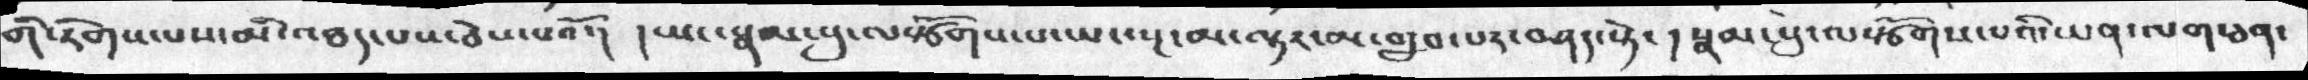གི་རིགས་པས་མི་འཐད་པས་ཅེས་པའོ་།  །ཡང་སྣམ་བུ་ལསྩོགས་པ་ཡང་སྔ་མ་ལྟར་མ་གྲུབ་པར་བཤད་སྟེ་། སྣམ་བུ་ལསྩོགས་པའི་ཡན་ལག་ཅན་
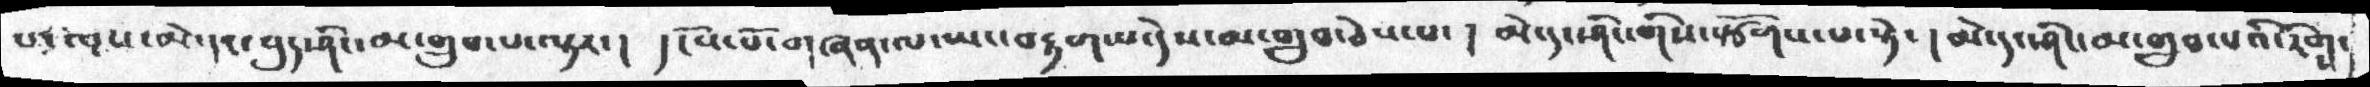པ་ལས་མེ་དང་བུད་ཤིང་མ་གྲུབ་པ་ལྟར་།  དངོས་པོ་གཞན་ལ་ཡང་བརྟག་པ་དེས་མ་གྲུབ་ཅེས་པ་།  མེ་དང་ཤིང་གིས་སྩོགས་པ་སྟེ་།  མེ་དང་ཤིང་མ་གྲུབ་པའི་རིགས་
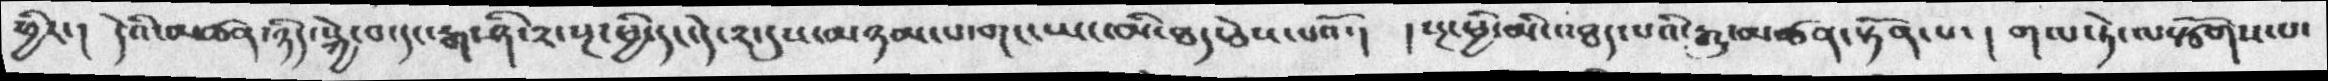ཕྱིར་།  དེའི་མཚན་ཉིད་སྐྱེ་བ་རྒ་ཤི་༢་སྔ་ཕྱི་དང་དེ་༢་དུས་མཉམ་པ་གང་ཡང་མི་ཐད་ཅེས་པའོ་།  །སྔ་ཕྱི་མི་འཐད་པའི་རྒྱུ་མཚན་སྟོན་པ་།  གལ་ཏེ་ལསྩོགས་པ་
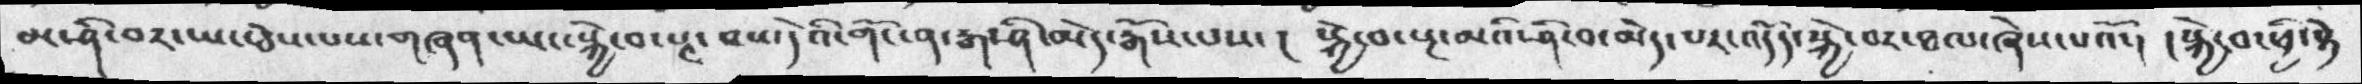མ་ཤི་བར་ཡང་ཅེས་པས་གཞན་ཡང་སྐྱེ་བ་སྔ་བས་དེའི་གོང་ན་རྒ་ཤི་མོད་རྒོས་པས་།   སྐྱེ་བ་སྔ་མའི་ཤི་བ་མེད་པར་འདོད་སྐྱེ་བར་ཐལ་ཞེས་པའོ་།   ། སྐྱེ་བ་ཕྱི་སྟེ་
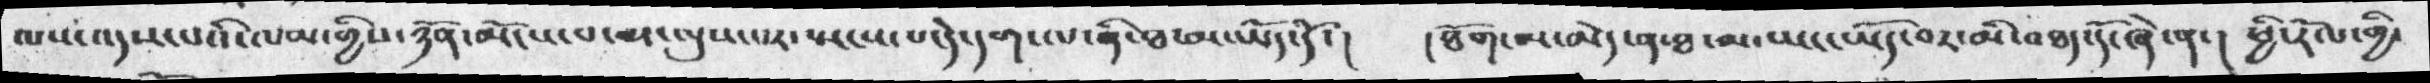ལས་འདས་པའི་ལམ་གྱིས་ཉོན་མོངས་པ་མ་ལུས་པར་སྤངས་པ་དེ་དག་ལ་ནི་ཐ་མ་ཡོད་དོ་།  །ཐོག་མ་མེད་ན་ཐ་མ་ཡང་ཡོད་བར་མི་འཐད་དོ་ཞེ་ན་།  ཕྱི་རོལ་གྱི་
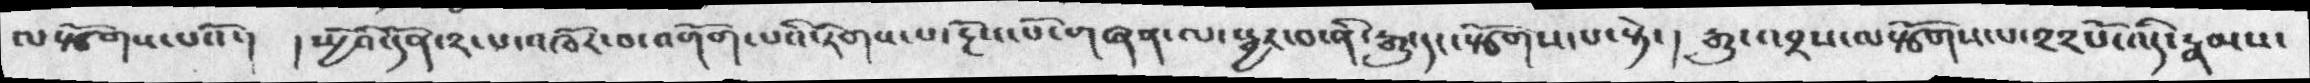ལསྩོགས་པའོ་།  །སྤྱིའིདོན་༢་པ་འཁོར་བ་འགོག་པའི་རིགས་པ་རྔོས་པོ་གཞན་ལ་སྦྱར་བ་ནི་རྒྱུ་དང་སྩོགས་པ་སྟེ་།  རྒྱུ་འབྲས་ལསྩོགས་པ་༢༢པོ་འདི་རྣམས་
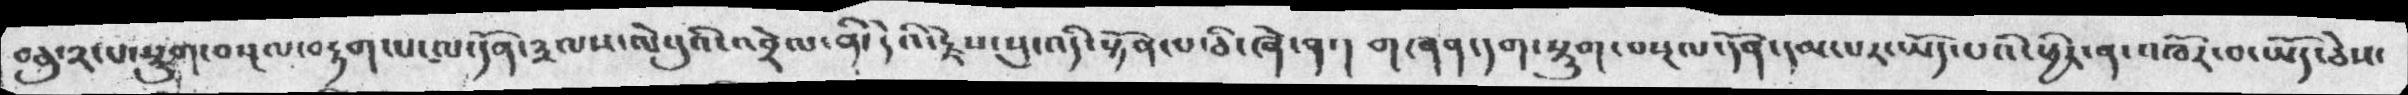བཅུ་༢་པ་སྡུག་བསྔལ་བརྟག་པ་ལ་དོན་༣ལས་ལེའུའི་འབྲེལ་བ་ནི་དེའི་རྗེས་སུ་འདི་སྟོན་པ་ཅི་ཞེ་ན་། གཞན་དག་སྡུག་བསྔལ་དོན་དམ་པར་ཡོད་པའི་ཕྱིར་ན་འཁོར་བ་ཡོད་ཅེས་
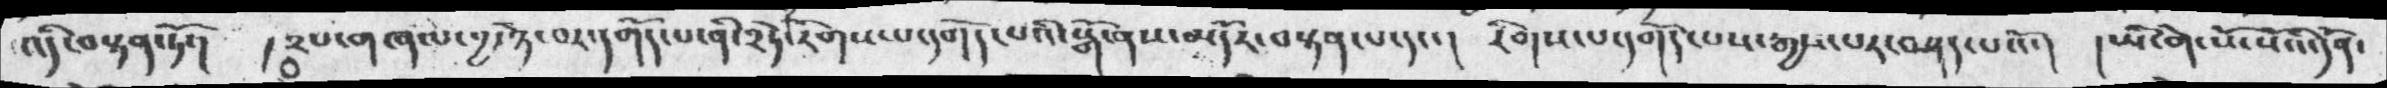འདི་བསྟན་ཏོ་   ། ༢པ་གཞལ་བྱ་ཉེ་བར་དགོད་པ་ནི་༢ཏེ་རིགས་པ་དགོད་པའི་སྒོ་ནས་མདོར་བསྟན་པ་དང་།  རིགས་པ་དགོད་པས་རྒྱས་པར་བཤད་པའོ་།   ། ཡི་གེ་སོ་སོའི་དོན་
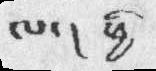ལ་།  ཕྱི
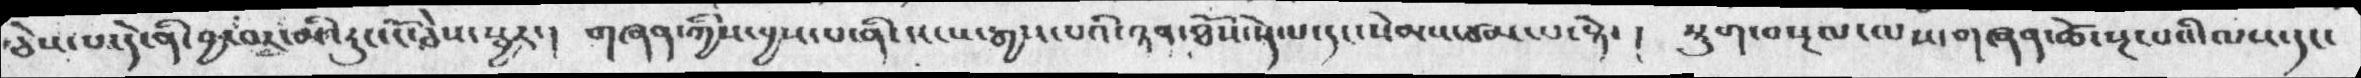ཅེས་པ་དེ་ནི་བྱ་བར་མི་རུང་ངོ་ཅེས་སྦྱར་།  གཞཉ་ཀྱིས་བྱས་པ་ནི་སངས་རྒྱས་པའི་ཉན་ཐོས་སྡེ་པ་དང་སེམས་ཙམ་པ་སྟེ་། སྡུག་བསྔལ་ལས་གཞན་ཚེ་སྔ་པའི་ལས་དང་
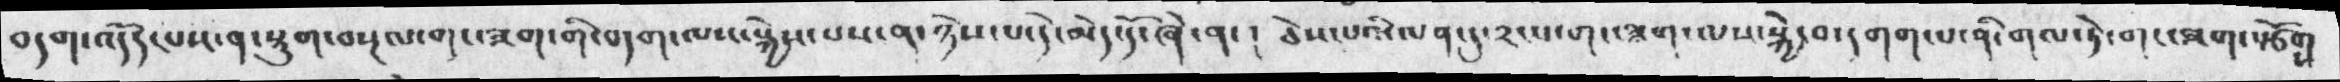བདག་འདོད་པས་ན་སྡུག་བསྔལ་གང་ཟག་གི་བདག་ལས་སྐྱེས་པས་ན་ཉེས་པ་དེ་མེད་དོ་ཞེ་ན་།  ཅེས་པའི་ལན་དུ་༢་པ་གང་ཟག་ལས་སྐྱེ་བ་དགག་པ་ནི་གལ་ཏེ་གང་ཟག་སྩོགས་
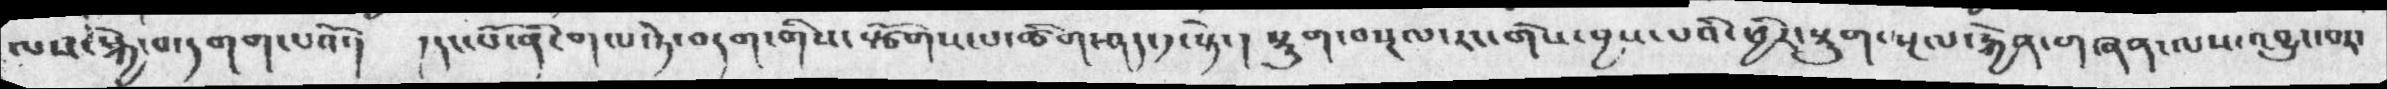ལས་སྐྱེ་བ་དགག་པའོ་།  །དང་པོ་ནི་གལ་ཏེ་བདག་གིས་སྩོགས་པ་ཚིག་ཤད་༡་སྟེ་། སྡུག་བསྔལ་རང་གིས་བྱས་པའི་ཕྱིར་སྡུག་སྔལ་རྐྱེན་གཞན་ལས་འབྱུང་བར་
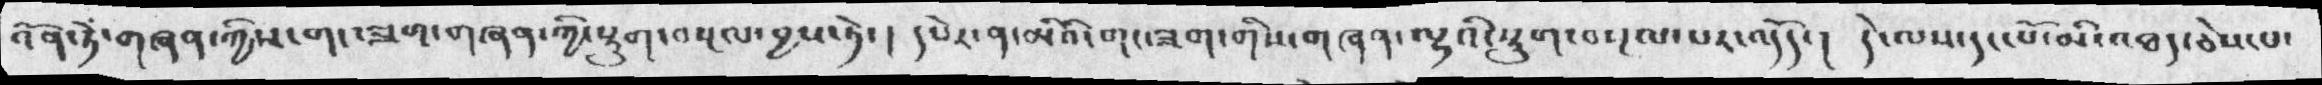འོན་ཏེ་གཞན་ཀྱིས་གང་ཟག་གཞན་ཀྱི་སྡུག་བསྔལ་བྱས་ཏེ་།  དཔེར་ན་མིའི་གང་ཟག་གིས་གཞན་ལྷའི་སྡུག་བསྔལ་པར་འདོད་།  དེ་ལས་དང་པོ་མི་འཐད་ཅེས་པ་
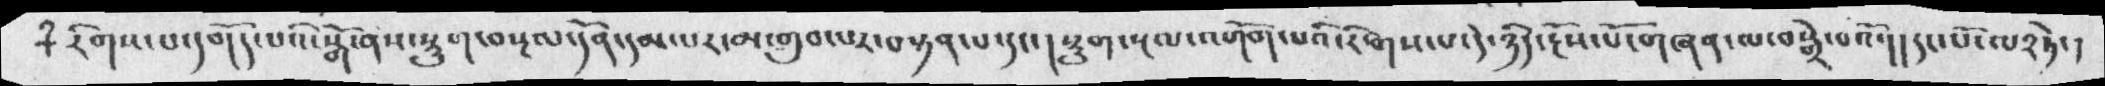རིགས་པ་དགོད་པའི་སྒོ་ནས་སྡུག་བསྔལ་དོན་དམ་པར་མ་གྲུབ་པར་བསྟན་པ་དང་།  སྡུག་སྔལ་འགོག་པའི་རིགས་པ་དེ་ཉིད་རྔོས་པོ་གཞན་ལ་བསྒྲེ་བའོ་།།  དང་པོ་ལ༢ཏེ་།
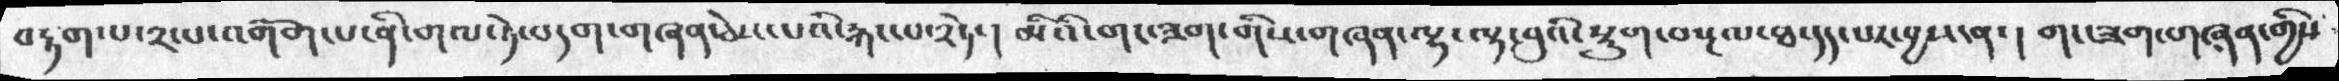བརྟག་པ་༢་པ་འགོག་པ་ནི་གལ་ཏེ་བདག་གཞན་ཅེས་པའི་རྐང་པ་༢ཏེ་།  མིའི་གང་ཟག་གིས་གཞན་ལྷ་ལྟ་བུའི་སྡུག་བསྔལ་ཐ་དད་པར་བྱས་ན་།  གང་ཟག་གཞན་གྱིས
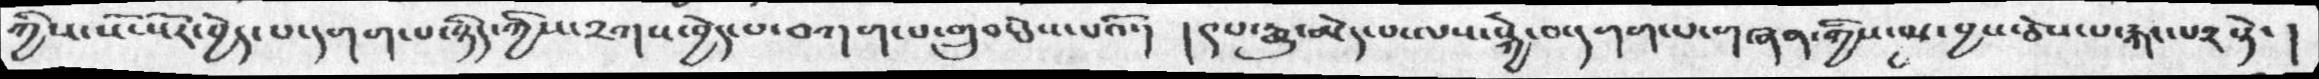ཀྱིས་སོ་སོར་བྱེད་པ་དགག་པ་ཉིད་ཀྱིས་༢གས་བྱེད་པ་བཀག་པ་གྲུབ་ཅེས་པའོ་།  །༩པ་རྒྱུ་མེད་པ་ལས་སྐྱེ་བ་དགག་པ་གཞན་ཀྱིས་མ་བྱས་ཅེས་པ་རྐང་པ༢སྟེ་ །
